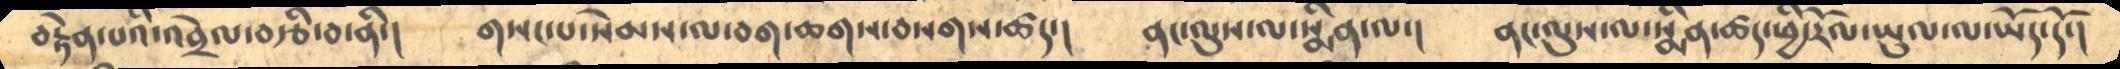བརྟེན་པའི་འབྲེལ་བ་བརྩི་བ་ནི་།    གསང་པ་སེམས་ལ་བག་ཆགས་བསགས་ཚད་།    ནང་ལུས་ལ་སྨིན་ལ་།    ནང་ལུས་ལ་སྨིན་ཚད་ཕྱི་རོལ་ཡུལ་ལ་ཡོད་དོ་།
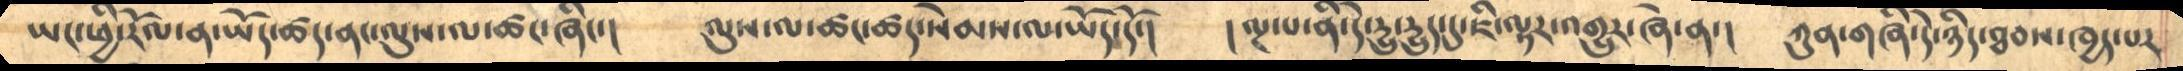ཡང་ཕྱི་རོལ་ན་ཡོད་ཚད་ནང་ལུས་ལ་ཚང་ཞིང་།      ལུས་ལ་ཚང་ཚད་སེམས་ལ་ཡོད་དོ་།    །ལྔ་པ་ནི་དེ་དྱུ་དྱུད་དུ་ཇི་ལྟར་འགྱུར་ཞེ་ན་།    ཀུནགཞི་དེ་ཉིད་ཐབས་ཁྱད་པར
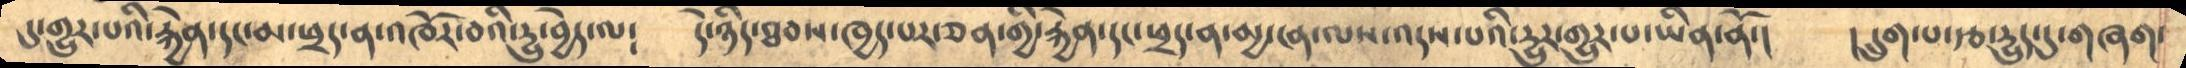དུ་གྱུར་པའི་རྐྱེན་དང་མ་ཕྲད་ན་འཁོར་བའི་དྱུ་བྱེད་ལ༴    དེ་ཉིད་ཐབས་ཁྱད་པར་ཅན་གྱི་རྐྱེན་དང་ཕྲད་ན་མྱ་ངན་ལས་འདས་པའི་དྱུར་གྱུར་པ་ཡིན་ནོ་།   །དྲུག་པ་རྩ་དྱུད་དུ་གཞག་
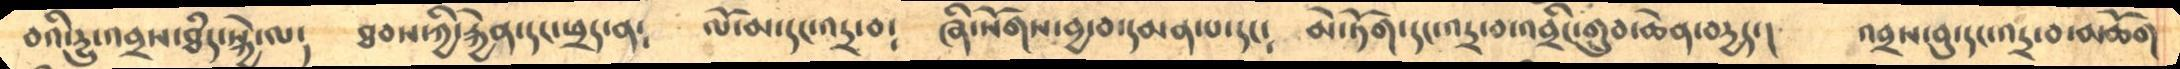བའི་དྱུ་འབྲས་ཐཾད་སྐྱེ་ལ༴      ཐབས་ཀྱི་རྐྱེན་དང་ཕྲད་ན༴  ལོ་མ་དང་འདྲ་བ༴     ཞི་སོགས་བྱ་བ་དམན་པ་དང༴    མེ་ཏོག་དང་འདྲ་བ་འབྲིང་གྲུབ་ཆེན་བདྱད་།     འབྲས་བུ་དང་འདྲ་བ་མཆོག
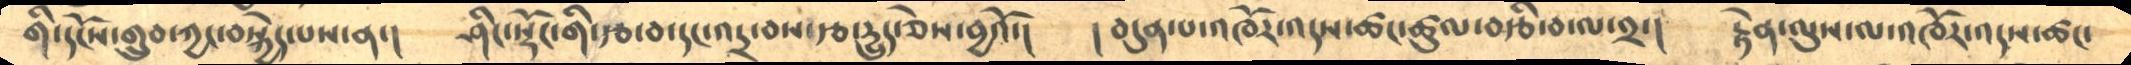གི་དངོས་གྲུབ་ཀྱང་བསྐྱེད་པས་ན་།     ཤིང་སྡོང་གི་རྩ་བ་དང་འདྲ་བས་རྩ་དྱུད་ཅེས་བྱའོ་།     །བདུན་པ་འཁོར་འདས་ཚང་ཚུལ་བརྩི་བ་ལ་༢་།     རྟེན་ལུས་ལ་འཁོར་འདས་ཚང་
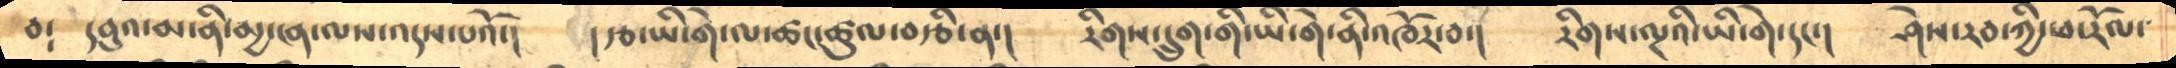བ༴  དབུའ་མ་ནི་མྱ་ངན་ལས་འདས་པའོ་།      །རྩ་ཡི་གེ་ལ་ཚང་ཚུལ་བརྩི་ན་།    རིགས་དྲུག་གི་ཡི་གེ་ནི་འཁོར་བ་།     རིགས་ལྔའི་ཡི་གེ་དང་།    ཤེས་རབ་ཀྱི་ཕ་རོལ་
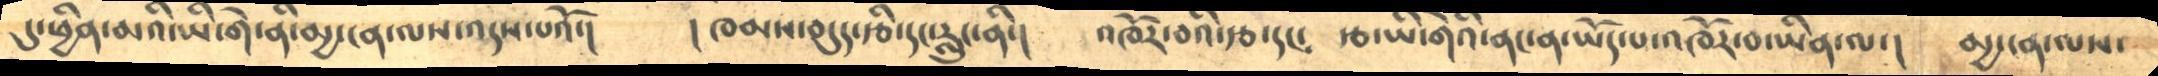དུ་ཕྱིན་མའི་ཡི་གེ་ནི་མྱ་ངན་ལས་འདས་པའོ་།      །ཁམས་བདུད་རྩི་དང་རླུང་ནི་།      འཁོར་བའི་རྩ་དང༴   རྩ་ཡི་གེའི་ནང་ན་ཡོད་པ་འཁོར་བ་ཡིན་ལ་།     མྱ་ངན་ལས་
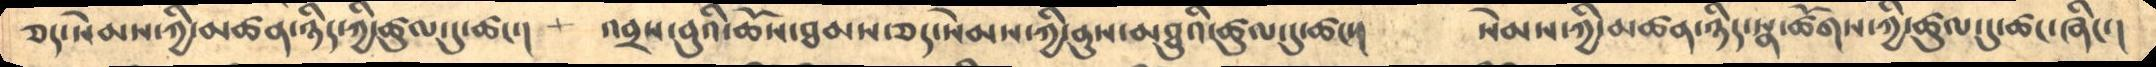ཅད་སེམས་ཀྱི་མཚན་ཉིད་ཀྱི་ཚུལ་དུ་ཚང་།     འབྲས་བུའི་ཆོས་ཐམས་ཅད་སེམས་ཀྱི་ནུས་མཐུའི་ཚུལ་དུ་ཚང་།     སེམས་ཀྱི་མཚན་ཉིད་སྣ་ཚོགས་ཀྱི་ཚུལ་དུ་ཚང་ཞིང་།
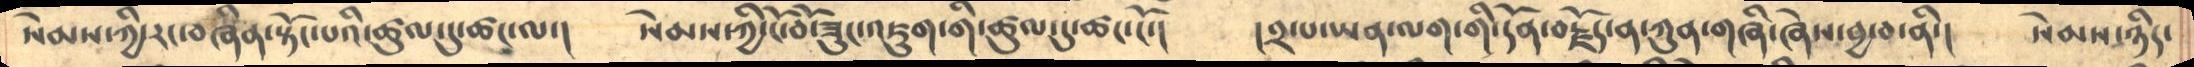སེམས་ཀྱི་རང་བཞིན་སྟོང་པའི་ཚུལ་དུ་ཚང་ལ་།     སེམས་ཀྱི་ངོ་བོ་ཟུང་འཇུག་གི་ཚུལ་དུ་ཚང་ངོ་།       །༢་པ་ཡན་ལག་གི་དོན་བརྗོད་ན་ཀུན་གཞི་ཞེས་བྱ་བ་ནི་།    སེམ་ཉིད་
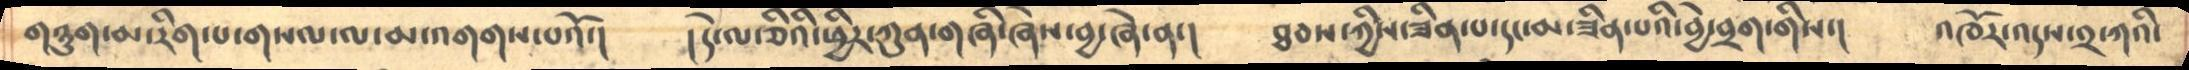གཉུག་མ་རིག་པ་གསལ་ལ་མ་འགགས་པའོ་།      །དེ་ལ་ཅིའི་ཕྱིར་ཀུན་གཞི་ཞེས་བྱ་ཞེ་ན་།     ཐབས་ཀྱིས་ཟིན་པ་དང་མ་ཟིན་པའི་བྱེ་བྲག་གིས་།     འཁོར་འདས་༢་ཀའི་
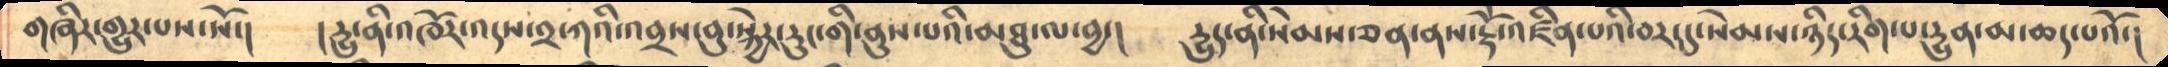གཞིར་གྱུར་པས་སོ་།       །དྱུ་ནི་འཁོར་འདས་༢་ཀའི་འབྲས་བུ་སྐྱེར་རུང་གི་ནུས་པའི་མཐུ་ལ་བྱ་།     དྱུད་ནི་སེམས་ཅན་ནས་རྡོེ་འཛིན་པའི་བར་དུ་སེམས་ཉིད་རིག་པ་དྱུན་མ་ཆད་པའོ་།
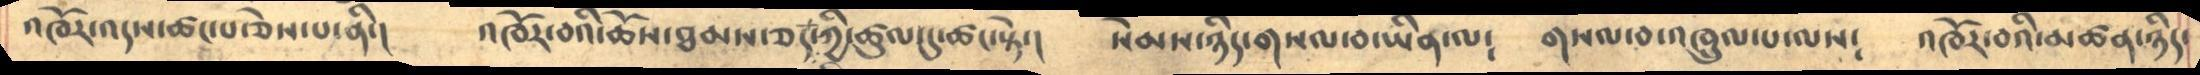འཁོར་འདས་ཚང་པ་ཅེས་པ་ནི་།     འཁོར་བའི་ཆོས་ཐམས་ཅད་ཀྱི་ཚུལ་དུ་ཚང་སྟེ་།        སེམས་ཉིད་གསལ་བ་ཡིན་ལ༴      གསལ་བ་འཁྲུལ་པ་ལས༴    འཁོར་བའི་མཚན་ཉིད་
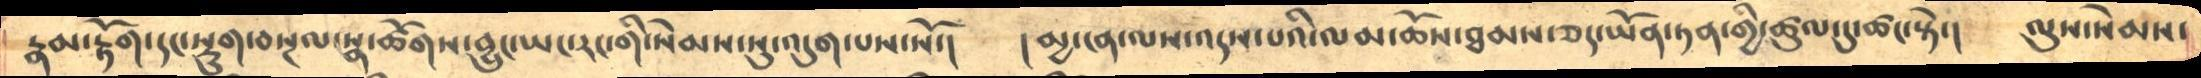རྣམ་རྟོག་དང་སྡུག་བསྔལ་སྣ་ཚོགས་བྱུང་ཡང་རང་གི་སེམས་སུ་འདུག་པས་སོ་།     །མྱ་ངན་ལས་འདས་པའི་ལམ་ཆོས་ཐམས་ཅད་ཡོན་ཏན་གྱི་ཚུལ་དུ་ཚང་སྟེ་།     ལུས་སེམས་
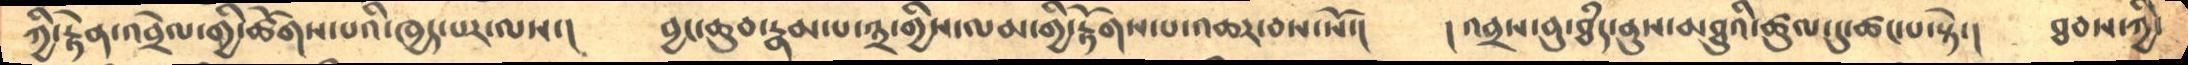ཀྱི་རྟེན་འབྲེལ་གྱི་ཚོགས་པའི་ཁྱད་པར་ལས་།       བྱང་ཆུབ་རྣམ་པ་༣་གྱིས་ལམ་གྱི་རྟོགས་པ་འཆར་བས་སོ་།    །འབྲས་བུ་ཐཾད་ནུས་མཐུའི་ཚུལ་དུ་ཚང་པ་སྟེ་།     ཐབས་ཀྱི་
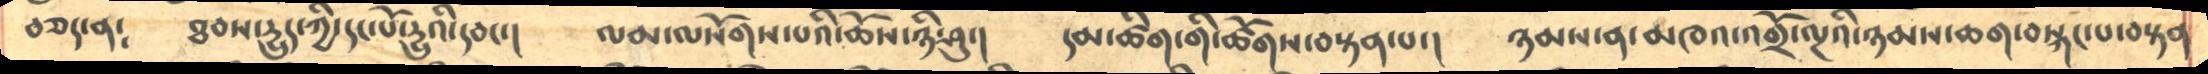བཅད་ན༴    ཐབས་དྱུད་ཀྱི་དང་པོ་དྱུའི་དབང་།      ལམ་ལསོགས་པའི་ཆོས་ཉི་ཤུ་།     དམ་ཚིག་གི་ཚོགས་བསྟན་པ་།      ཉམས་ན་མཁའ་འགྲོ་ལྔའི་ཉམས་ཆགས་བསྐང་པ་བསྟན
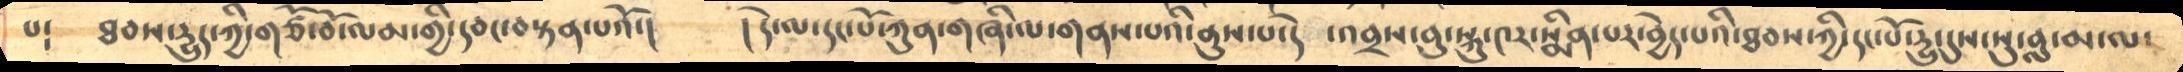པ༴     ཐབས་དྱུད་ཀྱི་གཙོ་བོ་ལམ་གྱི་དབང་བསྟན་པའོ་།    །དེ་ལ་དང་པོ་ཀུན་གཞི་ལ་གནས་པའི་ནུས་པ་དེ ་འབྲས་བུ་སྐུ་༤ར་སྨིན་པར་བྱེད་པའི་ཐབས་ཀྱི་དང་པོ་དྱུ་དུས་སུ་བླ་མ་ལ་
